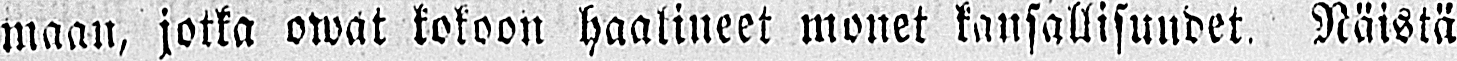maan, jotka owat kokoon haalineet monet kansallisuudet. Näistä
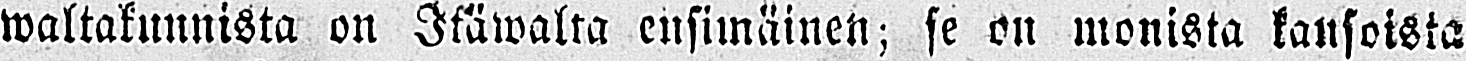waltakunnista on Itäwälta ensimäinen; se on monista kansoista
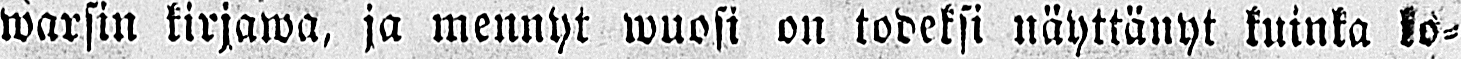warsin kirjawa, ja mennyt wuosi on todeksi näyttänyt kuinka ko-
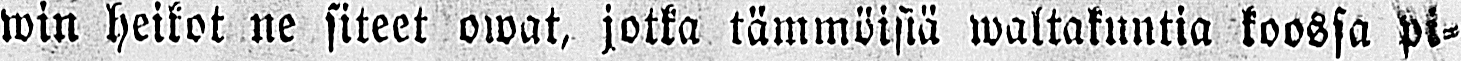win heikot ne siteet owat, jotka tämmöisiä waltakuntia koossa pi-
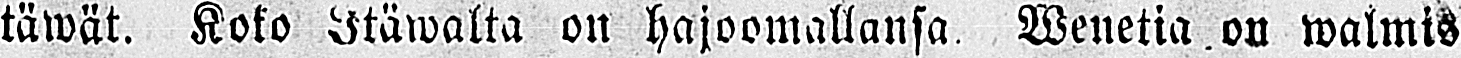täwät. Koko Itäwalta on hajoomallansa. Wenetia on walmis
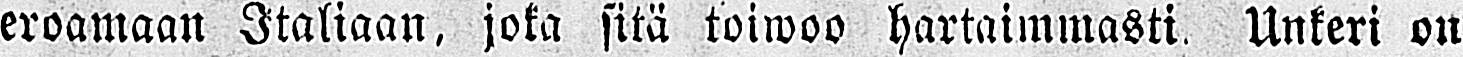eroamaan Italiaan, joka sitä toiwoo hartaimmasti. Unkeri on
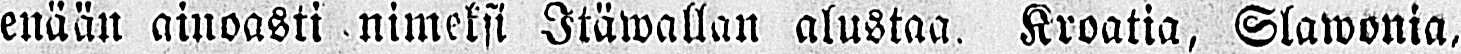enään ainoasti nimeksi Itäwallan alustaa. Kroatia, Slawonia,
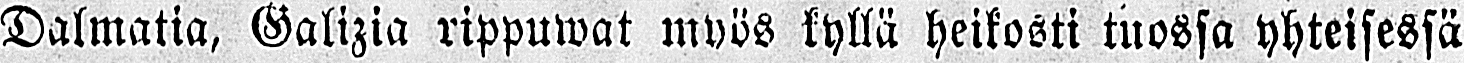Dalmatia, Galizia rippuwat myös kyllä heikosti tuossa yhteisessä
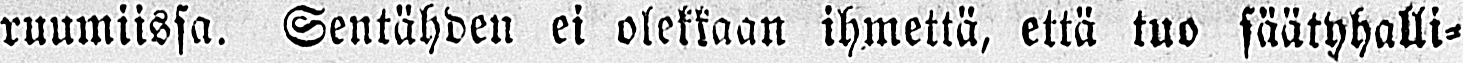ruumiissa. Sentähden ei olekkaan ihmettä, että tuo säätyhalli-
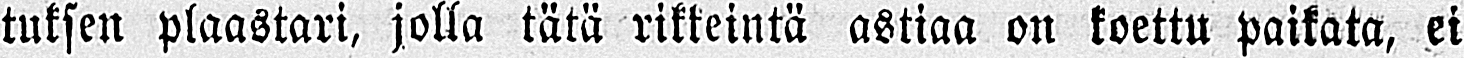tuksen plaastari, jolla tätä rikkeintä astiaa on koettu paikata, ei
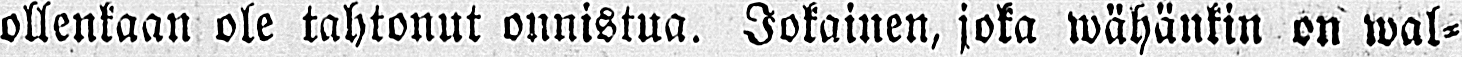ollenkaan ole tahtonut onnistua. Jokainen, joka wähänkin on wal-
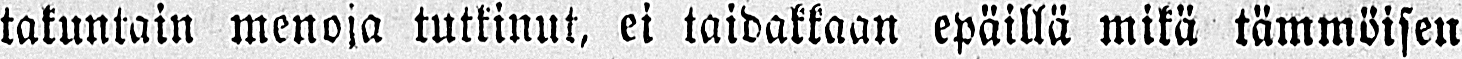takuntain menoja tutkinut, ei taidakkaan epäillä mikä tämmöisen
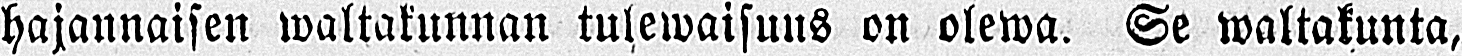hajannaisen waltakunnan tulewaisuus on olewa. Se waltakunta,
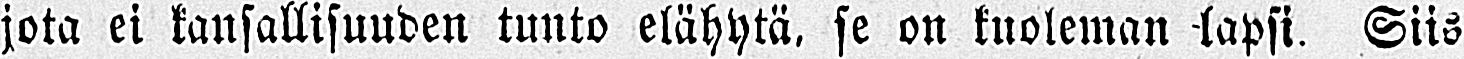jota ei kansallisuuden tunto elähytä. se on kuoleman lapsi. Siis
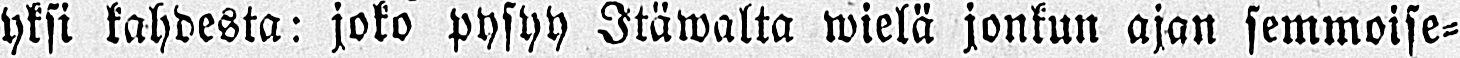yksi kahdesta: joko pysyy Itäwalta wielä jonkun ajan semmoise-
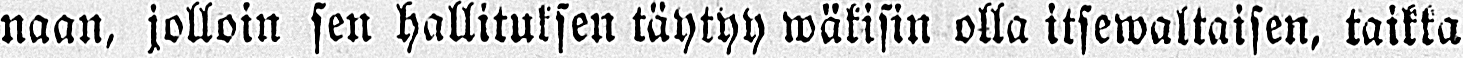naan, jolloin sen hallituksen täytyy wäkisin olla itsewaltaisen, taikka
